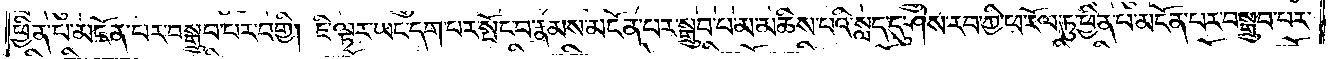ཕྱིན་པ་མངོན་པར་བསྒྲུབ་པར་བགྱི། ཇི་ལྟར་ཡང་དག་པར་སྤོང་བ་རྣམས་མངོན་པར་སྒྲུབ་པ་མ་མཆིས་པའི་སླད་དུ་ཤེས་རབ་ཀྱི་ཕ་རོལ་ཏུ་ཕྱིན་པ་མངོན་པར་བསྒྲུབ་པར་
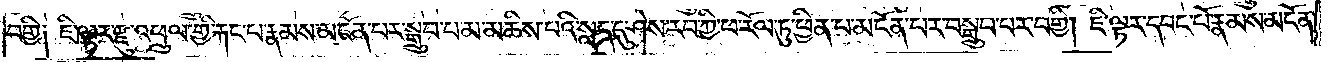བགྱི༑ ཇི་ལྟར་རྫུ་འཕྲུལ་གྱི་རྐང་པ་རྣམས་མངོན་པར་སྒྲུབ་པ་མ་མཆིས་པའི་སླད་དུ་ཤེས་རབ་ཀྱི་ཕ་རོལ་ཏུ་ཕྱིན་པ་མངོན་པར་བསྒྲུབ་པར་བགྱི། ཇི་ལྟར་དབང་པོ་རྣམས་མངོན་
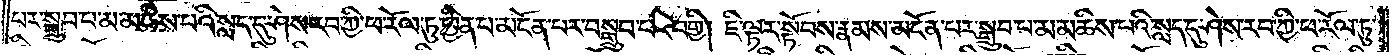པར་སྒྲུབ་པ་མ་མཆིས་པའི་སླད་དུ་ཤེས་རབ་ཀྱི་ཕ་རོལ་ཏུ་ཕྱིན་པ་མངོན་པར་བསྒྲུབ་པར་བགྱི། ཇི་ལྟར་སྟོབས་རྣམས་མངོན་པར་སྒྲུབ་པ་མ་མཆིས་པའི་སླད་དུ་ཤེས་རབ་ཀྱི་ཕ་རོལ་ཏུ་
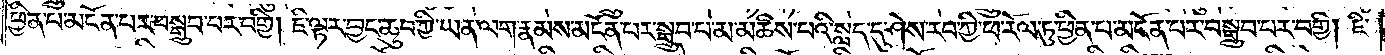ཕྱིན་པ་མངོན་པར་བསྒྲུབ་པར་བགྱི། ཇི་ལྟར་བྱང་ཆུབ་ཀྱི་ཡན་ལག་རྣམས་མངོན་པར་སྒྲུབ་པ་མ་མཆིས་པའི་སླད་དུ་ཤེས་རབ་ཀྱི་ཕ་རོལ་ཏུ་ཕྱིན་པ་མངོན་པར་བསྒྲུབ་པར་བགྱི། ཇི་
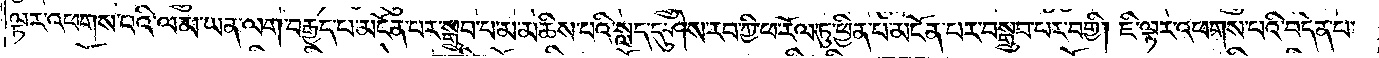ལྟར་འཕགས་པའི་ལམ་ཡན་ལག་བརྒྱད་པ་མངོན་པར་སྒྲུབ་པ་མ་མཆིས་པའི་སླད་དུ་ཤེས་རབ་ཀྱི་ཕ་རོལ་ཏུ་ཕྱིན་པ་མངོན་པར་བསྒྲུབ་པར་བགྱི། ཇི་ལྟར་འཕགས་པའི་བདེན་པ་
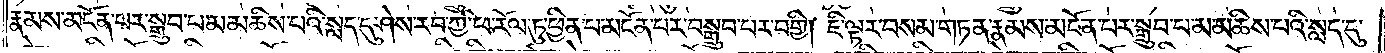རྣམས་མངོན་པར་སྒྲུབ་པ་མ་མཆིས་པའི་སླད་དུ་ཤེས་རབ་ཀྱི་ཕ་རོལ་ཏུ་ཕྱིན་པ་མངོན་པར་བསྒྲུབ་པར་བགྱི། ཇི་ལྟར་བསམ་གཏན་རྣམས་མངོན་པར་སྒྲུབ་པ་མ་མཆིས་པའི་སླད་དུ་
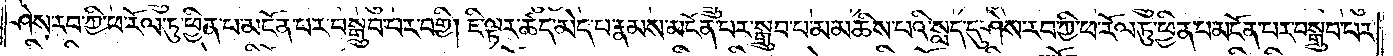ཤེས་རབ་ཀྱི་ཕ་རོལ་ཏུ་ཕྱིན་པ་མངོན་པར་བསྒྲུབ་པར་བགྱི། ཇི་ལྟར་ཚད་མེད་པ་རྣམས་མངོན་པར་སྒྲུབ་པ་མ་མཆིས་པའི་སླད་དུ་ཤེས་རབ་ཀྱི་ཕ་རོལ་ཏུ་ཕྱིན་པ་མངོན་པར་བསྒྲུབ་པར་
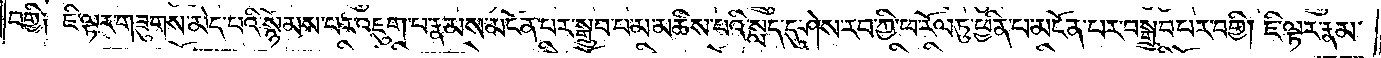བགྱི༑ ཇི་ལྟར་གཟུགས་མེད་པའི་སྙོམས་པར་འཇུག་པ་རྣམས་མངོན་པར་སྒྲུབ་པ་མ་མཆིས་པའི་སླད་དུ་ཤེས་རབ་ཀྱི་ཕ་རོལ་ཏུ་ཕྱིན་པ་མངོན་པར་བསྒྲུབ་པར་བགྱི། ཇི་ལྟར་རྣམ་
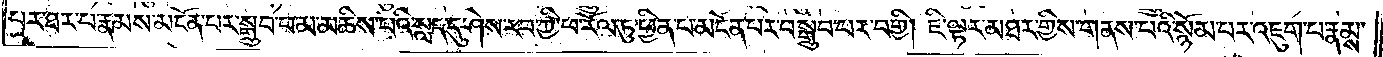པར་ཐར་པ་རྣམས་མངོན་པར་སྒྲུབ་པ་མ་མཆིས་པའི་སླད་དུ་ཤེས་རབ་ཀྱི་ཕ་རོལ་ཏུ་ཕྱིན་པ་མངོན་པར་བསྒྲུབ་པར་བགྱི། ཇི་ལྟར་མཐར་གྱིས་གནས་པའི་སྙོམས་པར་འཇུག་པ་རྣམས་
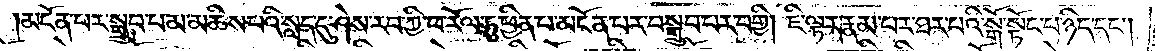མངོན་པར་སྒྲུབ་པ་མ་མཆིས་པའི་སླད་དུ་ཤེས་རབ་ཀྱི་ཕ་རོལ་ཏུ་ཕྱིན་པ་མངོན་པར་བསྒྲུབ་པར་བགྱི། ཇི་ལྟར་རྣམ་པར་ཐར་པའི་སྒོ་སྟོང་པ་ཉིད་དང༌།
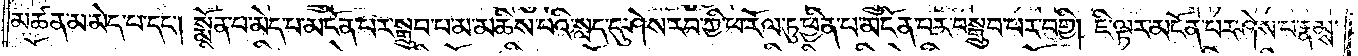མཚན་མ་མེད་པ་དང༌། སྨོན་པ་མེད་པ་མངོན་པར་སྒྲུབ་པ་མ་མཆིས་པའི་སླད་དུ་ཤེས་རབ་ཀྱི་ཕ་རོལ་ཏུ་ཕྱིན་པ་མངོན་པར་བསྒྲུབ་པར་བགྱི། ཇི་ལྟར་མངོན་པར་ཤེས་པ་རྣམས་
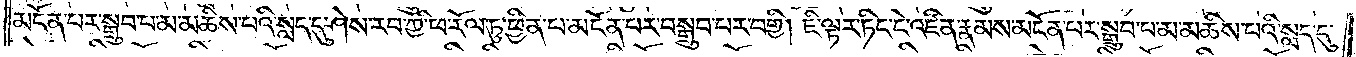མངོན་པར་སྒྲུབ་པ་མ་མཆིས་པའི་སླད་དུ་ཤེས་རབ་ཀྱི་ཕ་རོལ་ཏུ་ཕྱིན་པ་མངོན་པར་བསྒྲུབ་པར་བགྱི། ཇི་ལྟར་ཏིང་ངེ་འཛིན་རྣམས་མངོན་པར་སྒྲུབ་པ་མ་མཆིས་པའི་སླད་དུ་
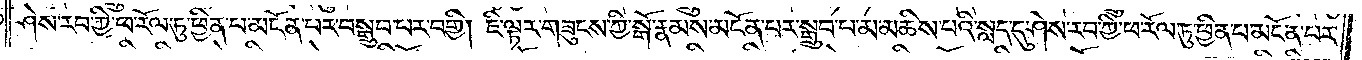ཤེས་རབ་ཀྱི་ཕ་རོལ་ཏུ་ཕྱིན་པ་མངོན་པར་བསྒྲུབ་པར་བགྱི། ཇི་ལྟར་གཟུངས་ཀྱི་སྒོ་རྣམས་མངོན་པར་སྒྲུབ་པ་མ་མཆིས་པའི་སླད་དུ་ཤེས་རབ་ཀྱི་ཕ་རོལ་ཏུ་ཕྱིན་པ་མངོན་པར་
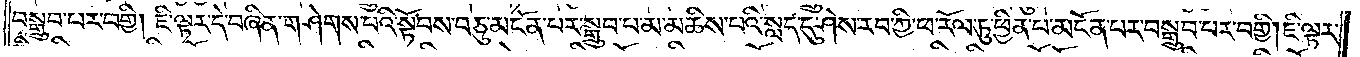བསྒྲུབ་པར་བགྱི། ཇི་ལྟར་དེ་བཞིན་གཤེགས་པའི་སྟོབས་བཅུ་མངོན་པར་སྒྲུབ་པ་མ་མཆིས་པའི་སླད་དུ་ཤེས་རབ་ཀྱི་ཕ་རོལ་ཏུ་ཕྱིན་པ་མངོན་པར་བསྒྲུབ་པར་བགྱི། ཇི་ལྟར་
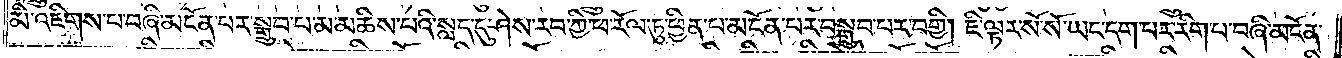མི་འཇིགས་པ་བཞི་མངོན་པར་སྒྲུབ་པ་མ་མཆིས་པའི་སླད་དུ་ཤེས་རབ་ཀྱི་ཕ་རོལ་ཏུ་ཕྱིན་པ་མངོན་པར་བསྒྲུབ་པར་བགྱི། ཇི་ལྟར་སོ་སོ་ཡང་དག་པར་རིག་པ་བཞི་མངོན་
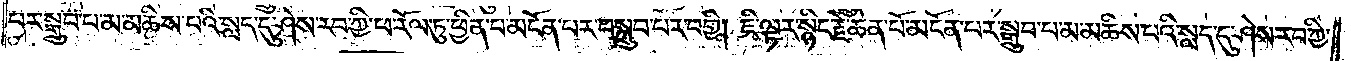པར་སྒྲུབ་པ་མ་མཆིས་པའི་སླད་དུ་ཤེས་རབ་ཀྱི་ཕ་རོལ་ཏུ་ཕྱིན་པ་མངོན་པར་བསྒྲུབ་པར་བགྱི། ཇི་ལྟར་སྙིང་རྗེ་ཆེན་པོ་མངོན་པར་སྒྲུབ་པ་མ་མཆིས་པའི་སླད་དུ་ཤེས་རབ་ཀྱི་
